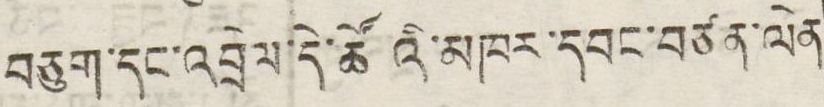བཅུག་དང་འབྲེལ་དེ་ཚོ འི་འཁར་དབང་བཙན་ལེན
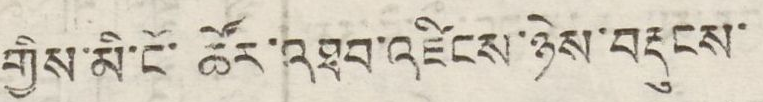གྱིས་མི་ངོ་ ཚོར་འཐབ་འཛིངས་ཉེས་བརྡུངས་
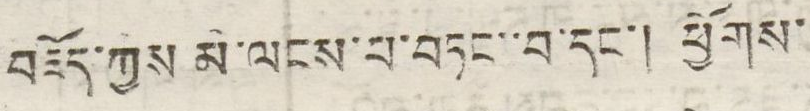བཇོད་ཀྱིས་མེ་ལངས་པ་བཏང་་བ་དང། ཕྱོགས་
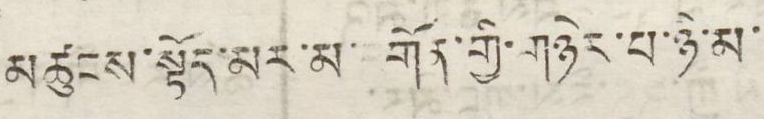མཚུངས་སྟོད་མར་མ་ གོན་གྱི་གཉེར་པ་ཉི་མ་
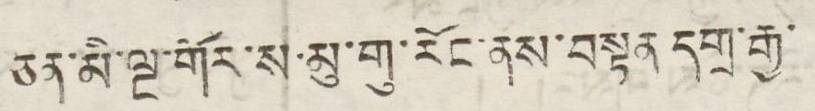ཅན་མི་ལྔ་གོར་ས་མུ་གུ་རོང་ནས་བསྟན དགྲ་རྒྱ་
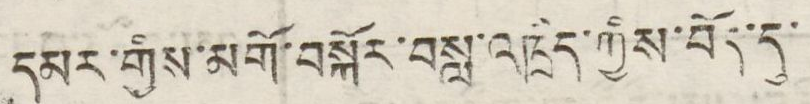དམར་གྱིས་མགོ་བསྐོར་བསླ་འཁྲིད་ཀྱིས་བོད་དུ་
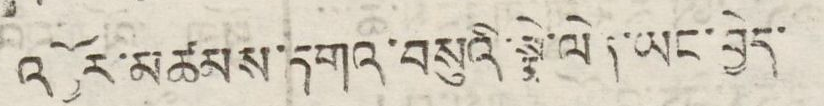འབྱོར་མཚམས་དགའ་བསུའི་སྣེ་ལེན་ཡང་བྱེད་
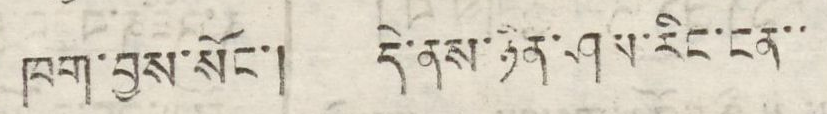ཁག་བྱས་སོང་། དེ་ནས་ཉིན་ཤས་རིང་ངན་་
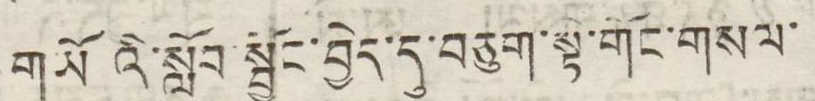གཡོའི་སློབ་སྦྱོང་བྱེད་དུ་བཅུག་སྟེ་གོང་གསལ་
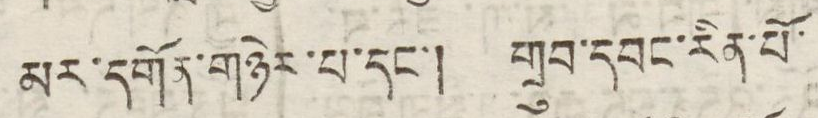མར་དགོན་གཉེར་པ་དང་། གྲུབ་དབང་རིན་པོ་
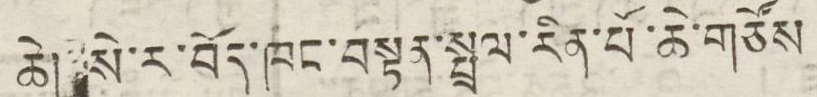ཆེ། སེ་ར་བོད་ཁང་བསྟན་སྤྲུལ་རིན་པོ་ཆེ་གཙོས
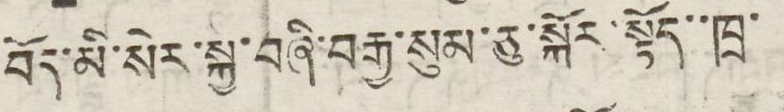བོད་མི་སེར་སྐྱ་བཞི་བརྒྱ་སུམ་ཅུ་སྐོར་སྟོད་་ཁྲ་
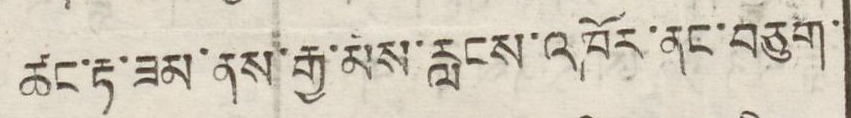ཚང་རྟ་ཟམ་ནས་རྒྱ་མིས་རླངས་འཁོར་ནང་བཅུག་
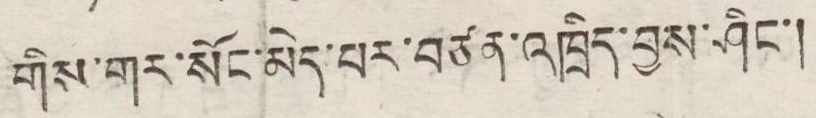གིས་གར་སོང་མེད་པར་བཙན་འཁྲིད་བྱས་ཤིང་།
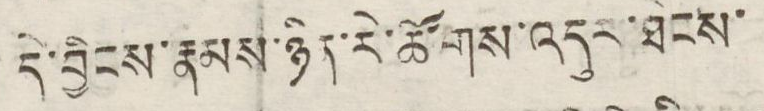དེ་བྱིངས་རྣམས་ཉིན་རེ་ཚོགས་འདུར་ཐེངས་
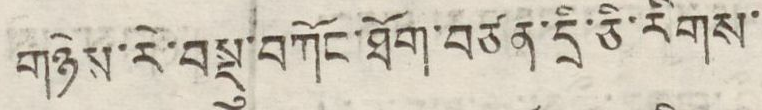གཉིས་རེ་བསྡུ་བཀོང་ཐོག་བཙན་དྲི་ཅི་རིགས་
